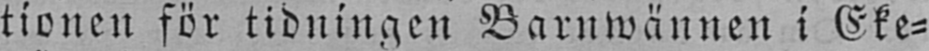tionen för tidningen Barnwännen i Eke-
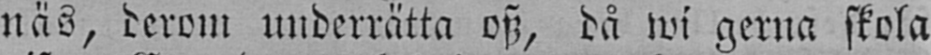näs, derom underrätta osz, då wi gerna skola
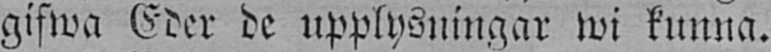gifwa Eder de upplysningar wi kunna.
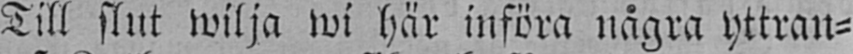Till slut wilja wi här införa några yttran-
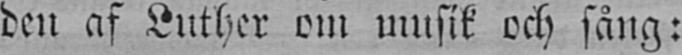den af Luther om musik och sång:
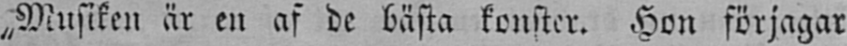"Musiken är en af de bästa konster. Hon förjagar
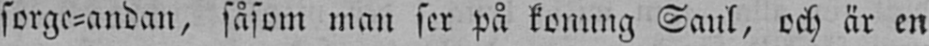sorge-andan, såsom man ser på konung Saul, och är en
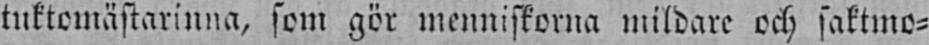tuktomästarinna, som gör menniskorna mildare och saktmo-
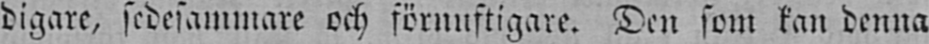digare, sedesammare och förnuftigare. Den som kan denna
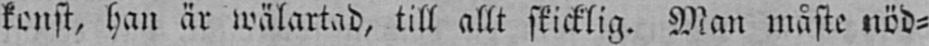konst, han är wälartad, till allt skicklig. Man måste nöd-
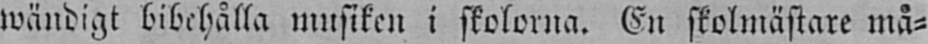wändigt bibehålla musiken i skolorna. En skolmästare må-
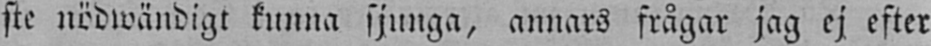ste nödwändigt kunna sjunga, annars frågar jag ej efter
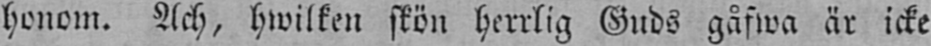honom. Ach, hwilken skön herrlig Guds gåfwa är icke
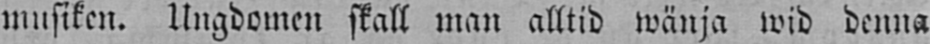musiken. Ungdomen skall man alltid wänja wid denna
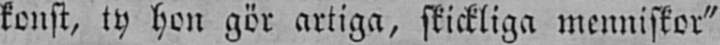konst, ty hon gör artiga, skickliga menniskor"
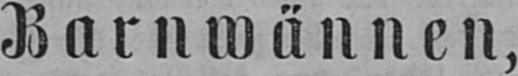Barnwännen,
